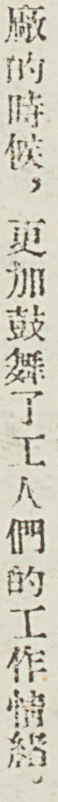廠的時候，更加鼓舞了工人們的工作情緒。
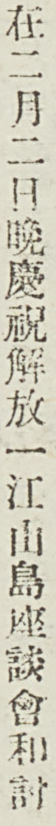在二月二日晚慶祝解放一江山島座談會和討
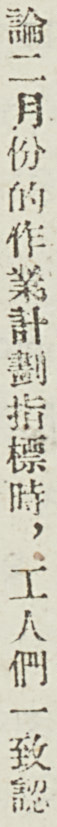論二月份的作業計劃指標時，工人們一致認
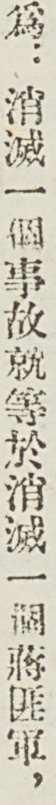爲：消滅一個事故就等於消滅一個蔣匪軍，
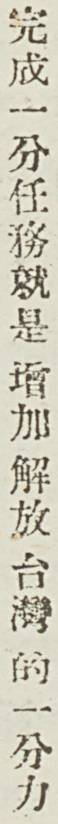完成一分任務就是增加解放台灣的一分力
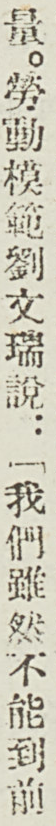量。勞動模範劉文瑞說：「我們雖然不能到前
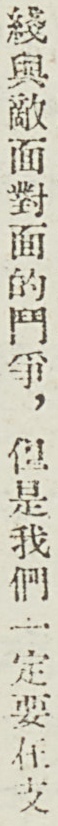綫與敵面對面的鬥爭，但是我們一定要在支
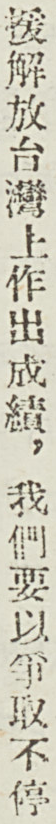援解放台灣上作出成績，我們要以爭取不停
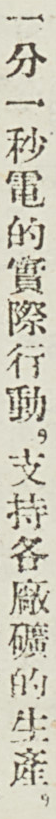一分一秒電的實際行動，支持各廠礦的生產，
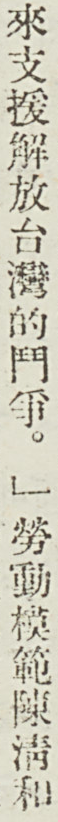來支援解放台灣的鬥爭。」勞動模範陳清和
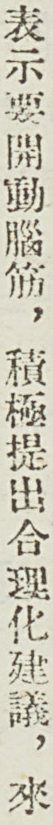表示要開動腦筋，積極提出合理化建議，來
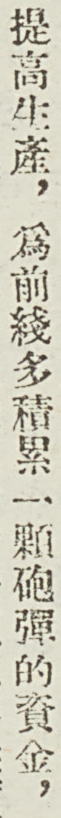提高生產，爲前綫多積累一顆砲彈的資金，
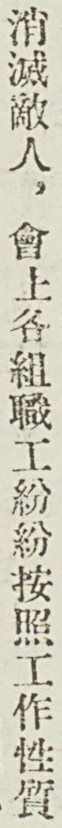消滅敵人，會上各組織工紛紛按照工作性質
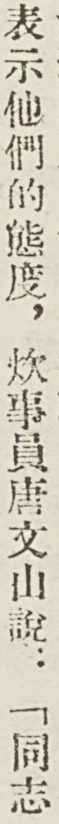表示他們的態度，炊事員唐文山說：「同志
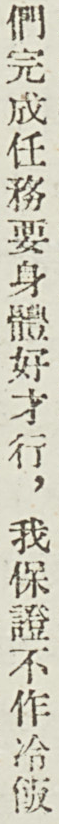們完成任務要身體好才行，我保證不作冷飯
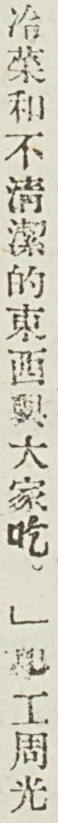冷菜和不清潔的東西與大家吃。」學工周光
